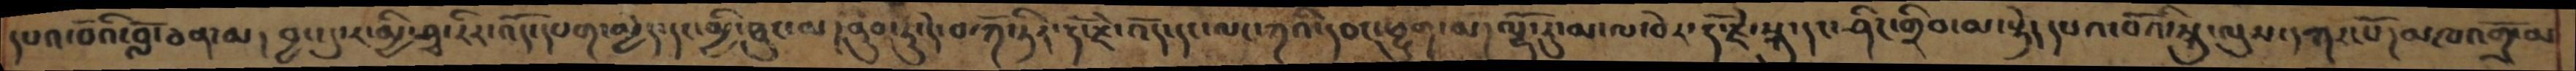དཔའ་བོའི་བློ་ཅན་མ།  བྱང་དུ་ར་མྱི་ཤྭ་རིར་འོད་དཔག་མྱེད་དང་མྱི་ཐུང་མ། ནུབ་ཏུ་དེ་བ་ཀོ་ཏིར་རྡོ་རྗེ་འོད་དང་ལང་ཀའི་དབང་ཕྱུག་མ།ལྷོ་རུ་མ་ལ་བེར་རྡོ་རྗེ་སྐུ་དང་ཤིང་གྲིབ་མ་སྟེ། དཔའ་བོའི་སྐུ་ལུས་དཀར་པོ།མཁའགྲོ་མ
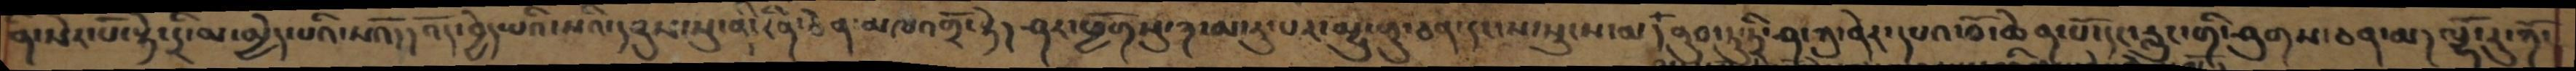ནི་སེར་པོ་སྟེ་དྲི་མ་མྱེད་པའི་སའོ།།འོད་བྱེད་པའི་སའི་དབུས་སུ་ནི་རིན་ཆེན་མཁའགྲོ་སྟེ། ཤར་ཕྱོགསུ་ཀ་མ་རུ་པར་མྱུ་གུ་ཅན་དང་ས་སྲུངས་མ། ནུབ་ཏུ་ཏྲི་ཤ་ཀུ་ནེར་དཔའ་བོ་ཆེན་པོ་དང་རླུང་གི་ཤུགས་ཅན་མ། ལྷོ་རུ་ཀོ་
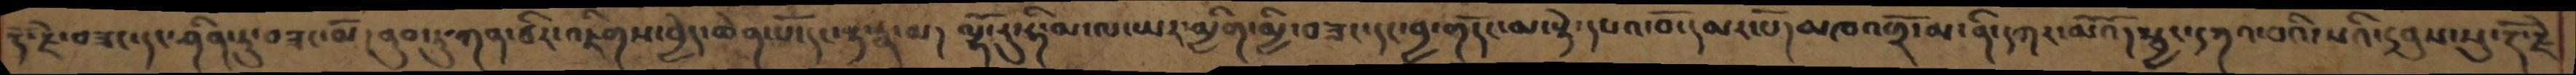རྡོ་རྗེ་བཟང་དང་ཤིན་ཏུ་བཟང་མོ། ནུབ་ཏུ་ཀན་ཙིར་འཇིགས་བྱེད་ཆེན་པོ་དང་རྟ་རྣ་མ། ལྷོ་རུ་ཧི་མ་ལ་ཡར་མྱིག་མྱི་བཟང་དང་བྱ་གདོང་མ་སྟེ་དཔའ་བོ་དམར་པོ།མཁའགྲོ་མ་ནི་དཀར་མོའོ།སྦྱང་དཀའ་བའི་སའི་དབུས་སུ་རྡོ་རྗེ
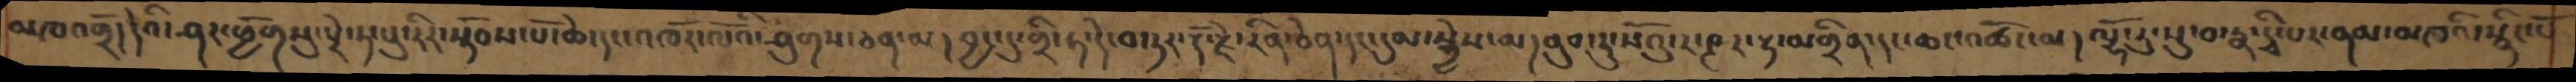མཁའགྲོ།དེའི་ཤར་ཕྱོགསུ་པྲེ་ཏ་པུ་རིར་སྟོབས་པོ་ཆེ་དང་འཁོར་ལོའི་ཤུགས་ཅན་མ།བྱང་དུ་གྲི་ཏ་དེ་བ་ཏར་རྡོ་རྗེ་རིན་ཅེན་དང་དུམ་སྐྱེས་མ། ནུབ་ཏུ་སོའུ་ར་ཥྜར་རྟ་གྲིན་དང་ཆང་འཚོང་མ།ལྷོ་རུ་སུ་བ་རྣ་དྭི་པར་ནམ་མཁའི་སྙིང་པོ
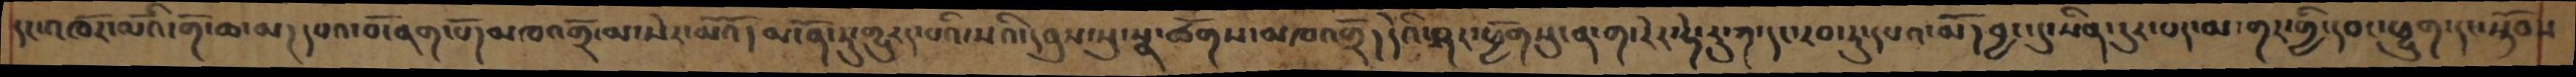དང་འཁོར་ལོའི་གོ་ཆ་མ།དཔའ་བོ་ནག་པོ།མཁའགྲོ་སེར་མའོ།མངོན་ཏུ་གྱུརད་པའི་དབུས་སུ་སྣ་ཚོགས་མཁའགྲོ། དེའི་ཤར་ཕྱོགསུ་ན་ག་རེར་ཧེ་རུ་ཀ་དང་རབ་ཏུ་དཔའ་མོ་བྱང་དུ་སིན་དུར་པད་མ་གར་གྱི་དབང་ཕྱུག་དང་སྟོབས
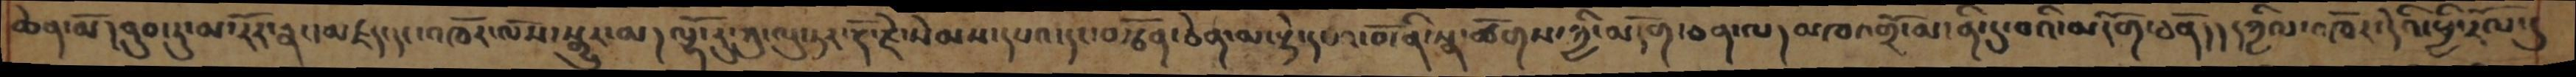ཆེན་མོ། ནུབ་ཏུ་མ་རོར་སྣང་མཛད་དང་འཁོར་ལོས་སྒྱུར་མ། ལྷོ་རུ་ཀུ་ལུ་ཏར་རྡོ་རྗེ་སེམས་དཔའ་དང་བརྩོན་ཅེན་མ་སྟེ་དཔའ་བོ་ནི་སྣ་ཚོགས་ཀྱི་མདོག་ཅན་ལ།མཁའགྲོ་མ་ནི་དུ་བའི་མདོག་ཅནོ།།དཀྱིལ་འཁོར་དེའི་ཕྱི་རོལ་དུ་
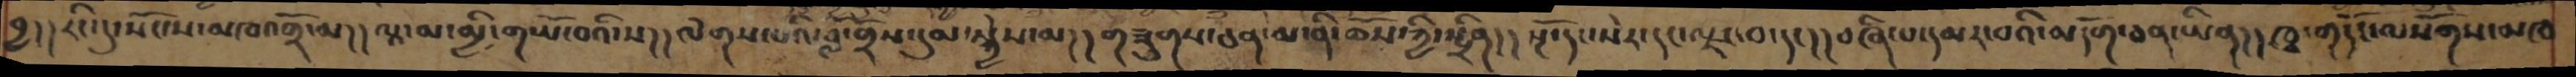བྱ།།རིང་དུ་སོང་ལ་མཁའགྲོ་མ།།ལཱ་མ་མྱི་གཡོ་བའི་ས།། ལེགས་པའི་བློ་གྲོས་དུམ་སྐྱེས་མ།།གཟུགས་ཅན་མ་ནི་ཆོས་ཀྱི་སྤྲིན།།སྔོ་དང་སེར་དང་ལྗང་བ་དང།།བཞི་པ་དམར་བའི་མདོག་ཅན་ཡིན།།ཁྭ་གདོང་ལསོགས་མཁ
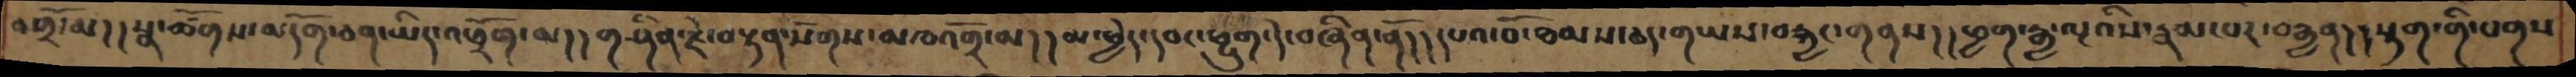འགྲོ་མ།།སྣ་ཚོགས་མདོག་ཅན་ཡིད་འཕྲོག་མ།།གཤིན་རྗེ་བརྟན་སོགས་མཁའགྲོ་མ།།མ་ཕྱེད་དབང་ཕྱུག་དེ་བཞིན་ནོ།།དཔའ་བོ་ཐམས་ཅད་གཡས་བརྐྱང་གནས།།ཕྱག་རྒྱ་ལྔའིས་རྣམ་པར་བརྒྱན།།སྟག་གི་པགས
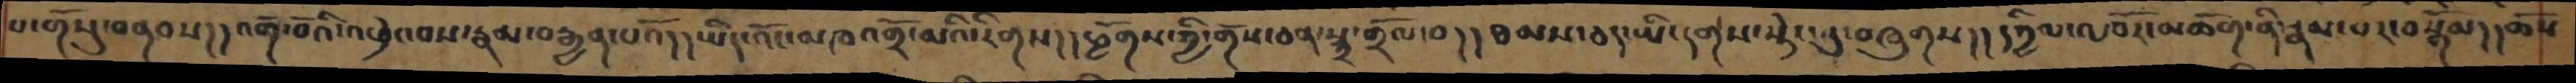པ་གོསུ་བནབས།།འགོ་བའི་འཕྲེང་བས་རྣམ་བརྒྱན་པའོ།།ཡིད་འོང་མཁའགྲོ་མའི་རིགས།།ཕྱོགས་ཀྱི་གོས་ཅན་སྐྲ་གྲོལ་བ།།ཐམས་ཅད་ཡི་དགས་སྟེང་བུ་བཞུགས།།དཀྱིལ་འཁོར་མཆོག་ནི་རྣམ་པར་བསྒོམ།།ཆོས་
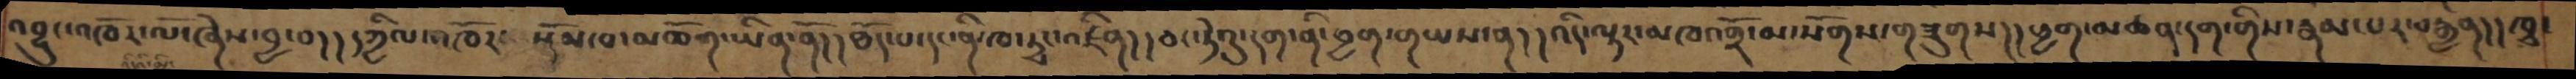འབྱུང་འཁོར་ལོ་ཞེས་བྱ་བ།།དཀྱིལ་འཁོར་སྡོམ་པ་མཆོག་ཡིན་ནོ།།ཐོད་པ་དང་ནི་ཁ་ཊྭང་འཛིན།།ཅང་ཏེའུ་དག་ནི་ཕྱག་གཡས་ན།།འདི་ལྟར་མཁའགྲོ་མ་སོགས་གཟུགས།།ཕྱག་མཚན་དག་གིས་རྣམ་པར་བརྒྱན།།ཁྭ
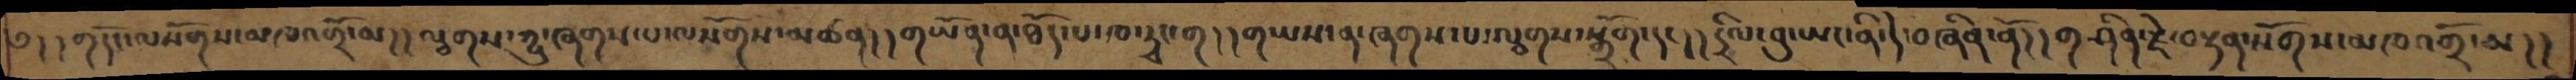༅། །གདོང་ལསོགས་མཁའགྲོ་མ།།ལྕགས་ཀྱུ་ཞགས་པ་ལསོགས་མཚན།།གཡོན་ན་ཐོད་པ་ཁ་ཊྭང་ག།།གཡས་ན་ཞགས་པ་ལྕགས་སྒྲོག་དང།།དྲིལ་བུ་ཡང་ནི་དེ་བཞིན་ནོ།།གཤིན་རྗེ་བརྟན་སོགས་མཁའགྲོ་མ།།
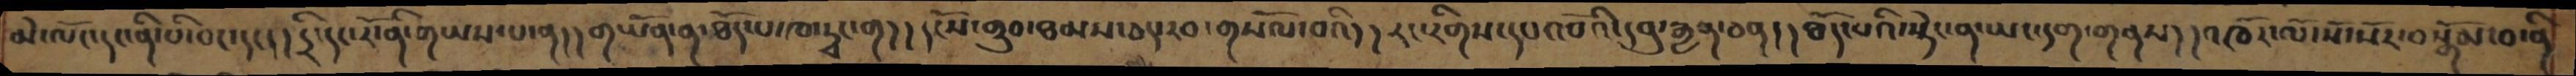མེ་ལོང་དང་ནི་པི་བང་དང།།དྲི་དང་རོ་ནི་གཡས་པ་ན།།གཡོན་ན་ཐོད་པ་ཁ་ཊྭང་ག།།དངོས་གྲུབ་ཐམས་ཅད་རབ་གསོལ་བའི།།རང་རིགས་དཔའ་བོའི་དབུ་རྒྱན་ཅན།།ཐོད་པའི་སྟེང་ན་ཡང་དག་གནས།།འཁོར་ལོ་སོ་སོར་བསྒོམ་བ་ནི
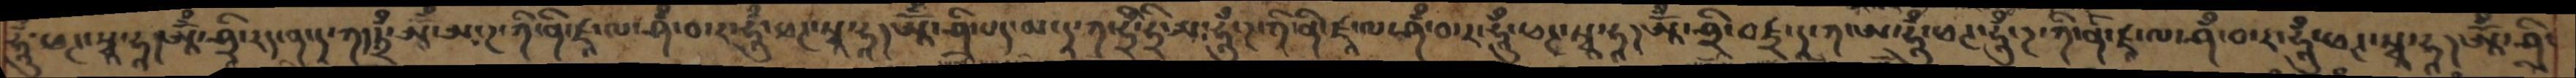ཧཱུྃ་ཕཊ་སྭཱ་ཧཱ། ཨཱོྃ་ཤྲཱི་རད་ན་ད་ཀདདཏྲྃ་ཨཱོྃ་ཨ་ཌ་ཀི་ནི་ཛཱ་ལ་ཤྃ་བ་ར་ཧཱུྃ་ཕཊ་སྭ་ཧཱ། ཨཱོྃ་ཤྲཱི་པདམ་དཱ་ཀ་ཧྲི་ཧྲི་ཨཿཿ  ཧཱུྃ་ཌ་ཀཱི་ནི་ཛཱ་ལ་ཤྃ་བ་ར་ཧཱུྃ་ཕཊ་སྭཱ་ཧཱ། ཨཱོྃ་ཤྲཱི་བཛྲ་ཌཱ་ཀ་ཨ་ཧཱུྃ་ཕཊ་ཧཱུྃ་ཌ་ཀི་ནི་ཛཱ་ལ་ཤྃ་བ་ར་ཧཱུྃ་ཕཊ་སྭཱ་ཧཱ། ཨཱོྃ་ཤྲཱི་
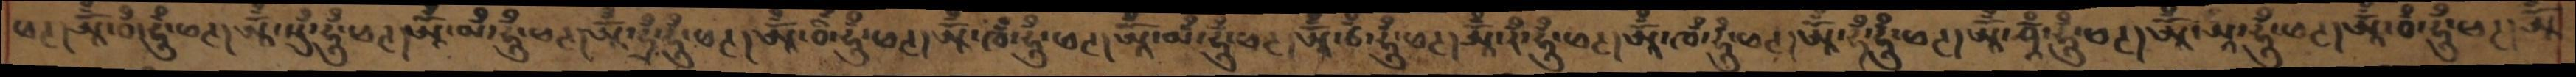ཕཊ། ཨཱོྃ་བྃ་ཧཱུྃ་ཕཊ། ཨཱོཾ་སུྃ་ཧཱུྃཕཊ། ཨཱོྃ་མྃ་ཧཱུྃ་ཕཊ། ཨཱོྃ་ཧྲྃ་ཧཱུྃ་ཕཊ། ཨཱོྃ་བྃ་ཧཱུྃ་ཕཊ། ཨཱོྃ་ཁྃ་ཧཱུྃ་ཕཊ། ཨཱོྃ་མྃ་ཧཱུྃ་ཕཊ། ཨཱོྃ་ཙྃ་ཧཱུྃ་ཕཊ། ཨཱོྃ་རྃ་ཧཱུྃ་ཕཊ། ཨཱོྃ་ཁྃ་ཧཱུྃ་ཕཊ། ཨཱོྃ་ཧྃ་ཧཱུྃ་ཕཊ། ཨཱོྃ་ཤྃ་ཧཱུྃ་ཕཊ། ཨཱོྃ་ཨཱ་ཧཱུྃ་ཕཊ། ཨཱོྃ་བྃ་ཧཱུྃ་ཕཊ། ཨཱོྃ
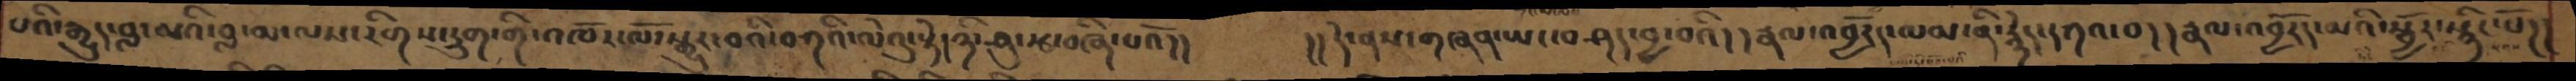པའི་རྒྱུད་བླ་མའི་བླ་མ་ལས་རིགས་དྲུག་གི་འཁོར་ལོ་སྒྱུར་བའི་བཀའི་ལེའུ་སྟེ་ཉི་ཤུ་རྩ་བཞི་པའོ།།   །།དེ་ནས་གཞན་ཡང་བཤད་བྱ་བའི།།རྣལ་འབྱོརད་ལམ་ནི་རྙེད་དཀའ་བ།། རྣལ་འབྱོརད་མའི་སྦྱོར་སྙིང་པོ།།
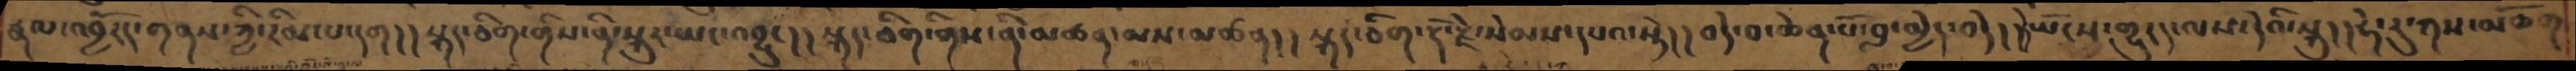རྣལ་འབྱོརད་གནས་ཀྱི་རིམ་པ་དག།།སྐད་ཅིག་གིས་ནི་སྐུར་ཡང་འབྱུང།།སྐད་ཅིག་གིས་ནི་མཚན་མས་མཚན།།སྐད་ཅིག་རྡོ་རྗེ་སེམས་དཔའ་སྟེ།།བདེ་བ་ཆེན་པོ་བླ་མྱེད་བདེ།།དེཡོངས་གྱུརད་ལས་དེའི་སྐུ།།ཧེ་རུ་ཀས་མཆོག
